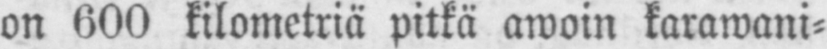on 600 kilometriä pitkä awoin karawani-
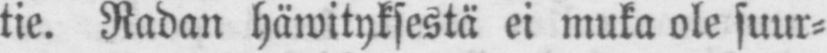tie. Radan häwityksestä ei muka ole suur-
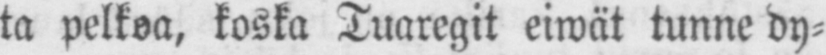ta pelkoa, koska Tuaregit eiwät tunne dy-
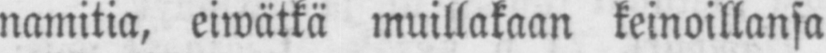namitia, eiwätkä muillakaan keinoillansa
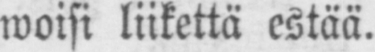woisi liikettä estää.
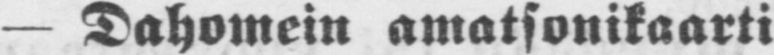— Dahomein amatsonikaarti
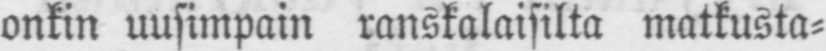onkin uusimpain ranskalaisilta matkusta-
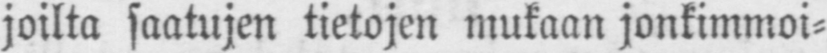joilta saatujen tietojen mukaan jonkimmoi-
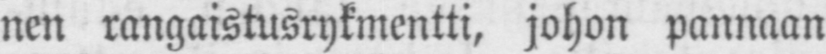nen rangaistusrykmentti, johon pannaan
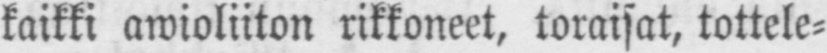kaikki awioliiton rikkoneet, toraisat, tottele-
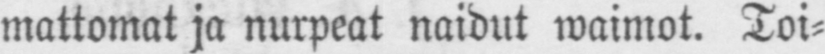mattomat ja nurpeat naidut waimot. Toi-
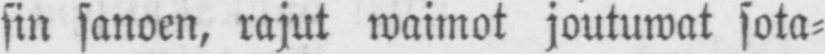sin sanoen, rajut waimot joutuwat sota-
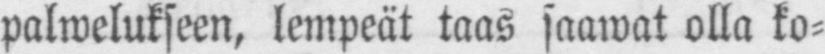palwelukseen, lempeät taas saawat olla ko-
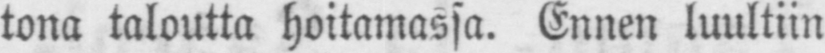tona taloutta hoitamassa. Ennen luultiin
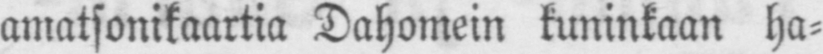amatsonikaartia Dahomein kuninkaan ha-
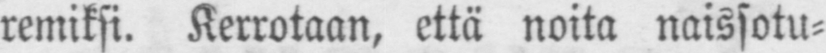remiksi. Kerrotaan, että noita naissotu-
